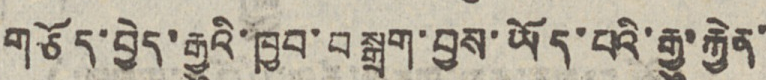གཅོད་བྱེད་རྒྱུའི་ཁྱབ་བསྒྲག་བྱས་ཡོད་པའི་རྒྱུ་རྐྱེན་
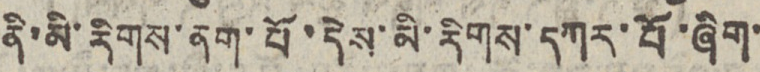ནི་མི་རིགས་ནག་པོ་དེས་མི་རིགས་དཀར་པོ་ཞིག་
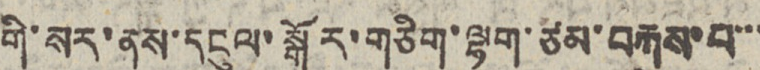གི་སར་ནས་དངུལ་སྒོར་གཅིག་ལྷག་ཙམ་བརྐུས་པ་་་
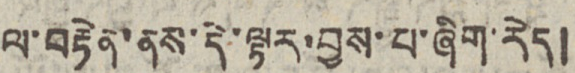ལ་བརྟེན་ནས་དེ་ལྟར་བྱས་པ་ཞིག་རེད།
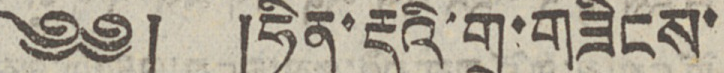༄༅། །ཧིན་རྡུའི་གྲུ་གཟིངས་
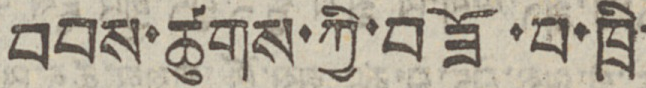བབས་ཚུགས་ཀྱི་བཟོ་བ་ཁྲི་
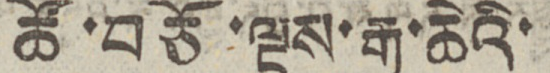ཚོ་བཅོ་ལྔས་རྒྱ་ཆེའི་
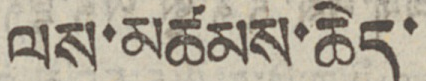ལས་མཚམས་ཆེད་
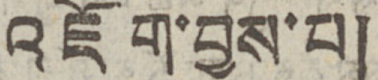འཇོག་བྱས་པ།
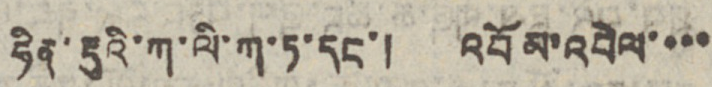ཧིན་རྡུའི་ཀ་ལི་ཀ་ཏ་དང་། འབོམ་འབེལ་་་་
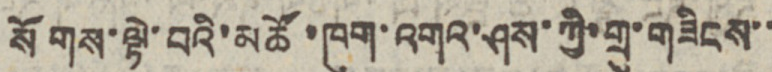སོགས་ལྟེ་བའི་མཚོ་ཁུག་འགའ་ཤས་ཀྱི་གྲུ་གཟིངས་་
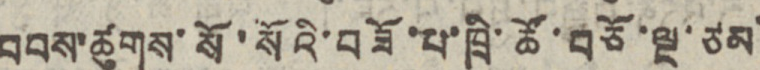བབས་ཚུགས་སོ་སོའི་བཟོ་པ་ཁྲི་ཚོ་བཅོ་ལྔ་ཙམ་
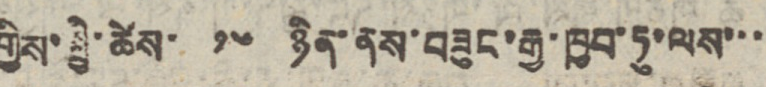གྱིས་སྤྱི་ཚེས་ ༡༦ ཉིན་ནས་བཟུང་རྒྱ་ཁྱབ་ཏུ་ལས་་་
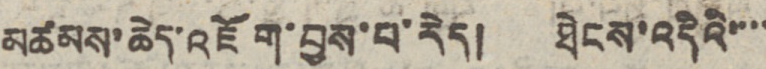མཚམས་ཆེད་འཇོག་བྱས་པ་རེད། ཐེངས་འདིའི་་་་
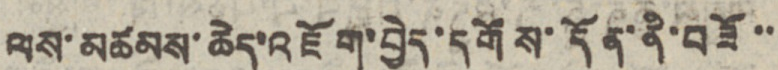ལས་མཚམས་ཆེད་འཇོག་བྱེད་དགོས་དོན་ནི་བཟོ་་
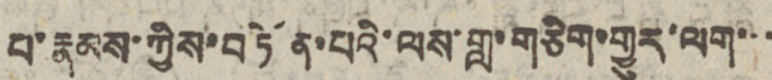པ་རྣམས་ཀྱིས་བཏོན་པའི་ལས་གླ་གཅིག་གྱུར་ལག་་་
